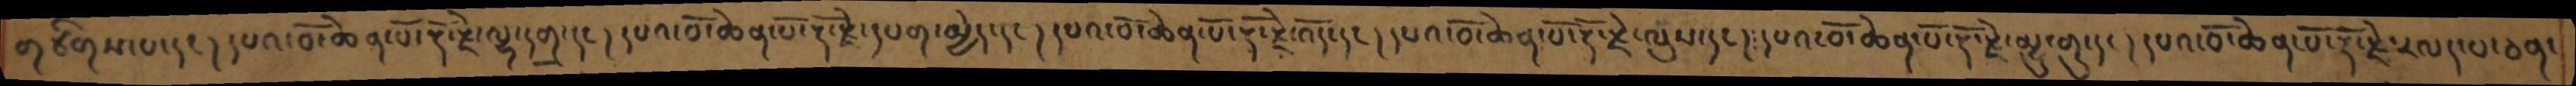གཅིགས་པ་དང །དཔའ་བོ་ཆེན་པོ་རྡོ་རྗེ་ལྷ་དག་དང ། དཔའ་བོ་ཆེན་པོ་རྡོ་རྗེ་དཔག་མྱེད་དང །དཔའ་བོ་ཆེན་པོ་ཆེན་པོ་རྡོ་རྗེ་འོད་དང ། དཔའ་བོ་ཆེན་པོ་རྡོ་རྗེ་ལུས་དང།༴དཔའ་བོ་ཆེན་པོ་རྡོ་རྗེ་མྱུ་གུ་དང །དཔའ་བོ་ཆེན་རྡོ་རྗེ་རལད་པ་ཅན་
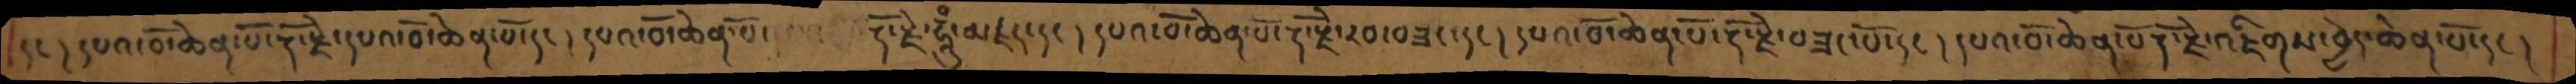དང །དཔའ་བོ་ཆེན་པོ་རྡོ་རྗེ་དཔའ་བོ་ཆེན་པོ་དང །དཔའ་བོ་ཆེན་པོ    རྡོ་རྗེ་ཧཱུྃ་མཛད་དང ། དཔའ་བོ་ཆེན་པོ་རྡོ་རྗེ་རབ་བཟང་དང །དཔའ་བོ་ཆེན་པོ་རྡོ་རྗེ་བཟང་པོ་དང །དཔའ་བོ་ཆེན་པོ་རྡོ་རྗེ་འཇིགས་བྱེད་ཆེན་པོ་དང །
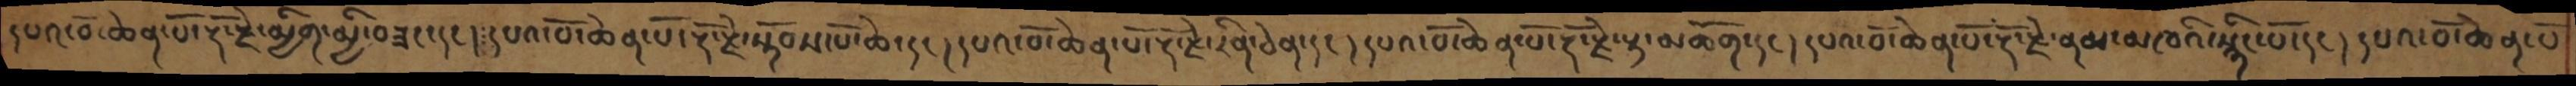དཔའ་བོ་ཆེན་པོ་རྡོ་རྗེ་མྱིག་མྱི་བཟང་དང།༴དཔའ་བོ་ཆེན་པོ་རྡོ་རྗེ་སྟོབས་པོ་ཆེ་དང །དཔའ་བོ་ཆེན་པོ་རྡོ་རྗེ་རིན་ཅེན་དང །དཔའ་བོ་ཆེན་པོ་རྡོ་རྗེ་རྟ་མཆོག་དང །དཔའ་བོ་ཆེན་པོ་རྡོ་རྗེ་ནམ་མཁའི་སྙིང་པོ་དང །དཔའ་བོ་ཆེན་པོ
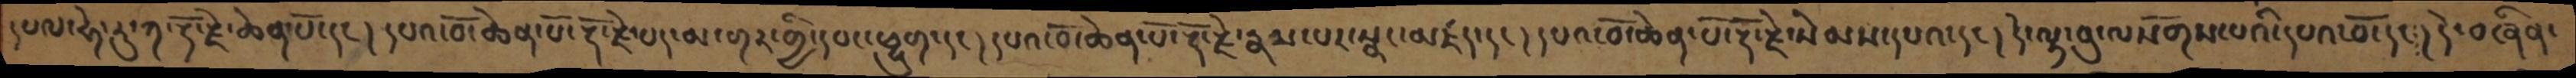དཔལ་ཧེ་རུ་ཀ་རྡོ་རྗེ་ཆེན་པོ་དང །དཔའ་བོ་ཆེན་པོ་རྡོ་རྗེ་པད་མ་གར་གྱི་དབང་ཕྱུག་དང །དཔའ་བོ་ཆེན་པོ་རྡོ་རྗེ་རྣམ་པར་སྣང་མཛད་དང །དཔའ་བོ་ཆེན་པོ་རྡོ་རྗེ་སེམས་དཔའ་དང །དེ་ལྟ་བུ་ལསོགས་པའི་དཔའ་བོ་དང ༴།དེ་བཞིན་
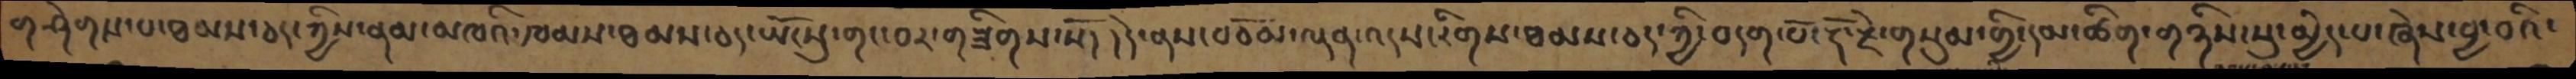གཤེགས་པ་ཐམས་ཅད་ཀྱིས་ནམ་མཁའི་ཁམས་ཐམས་ཅད་ཡོངསུ་གང་བར་གཟིགས་སོ་། །དེ་ནས་བཅོམ་ལྡན་འདས་རིགས་ཐམས་ཅད་ཀྱི་བདག་པོ་རྡོ་རྗེ་གསུམ་གྱི་དམ་ཚིག་གཉིས་སུ་མྱེད་པ་ཞེས་བྱ་བའི་
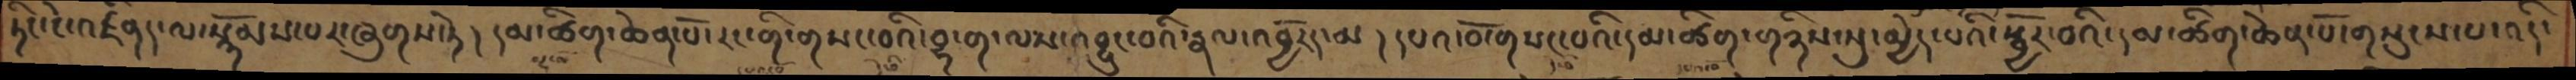ཏིང་ངེ་འཛིནད་ལ་སྙོམས་པར་ཞུགས་ཏེ།  དམ་ཚིག་ཆེན་པོ་རང་གི་གསང་བའི་བྷ་ག་ལས་འབྱུང་བའི་རྣལ་འབྱོརད་མ། དཔའ་བོ་གསང་བའི་དམ་ཚིག་གཉིས་སུ་མྱེད་པའི་སྦྱོར་བའི་དམ་ཚིག་ཆེན་པོ་གསུངས་པ་འདི་
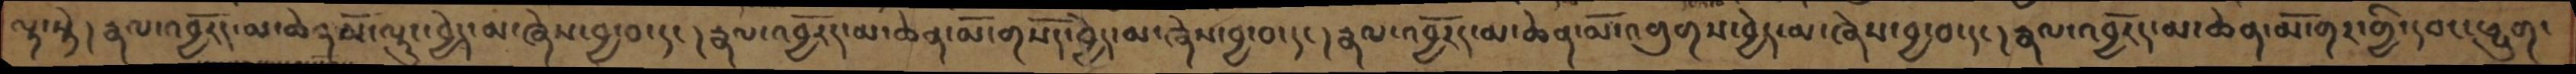ལྟ་སྟེ་།  རྣལ་འབྱོརད་མ་ཆེནམོ་ལྟུང་བྱེད་མ་ཞེས་བྱ་བ་དང །རྣལ་འབྱོར་མ་ཆེན་མོ་གསོད་བྱེད་མ་ཞེས་བྱ་བ་དང །རྣལ་འབྱོར་མ་ཆེན་མོ་འགུགས་བྱེད་མ་ཞེས་བྱ་བ་དང །རྣལ་འབྱོརད་མ་ཆེན་མོ་གར་གྱི་དབང་ཕྱུག་
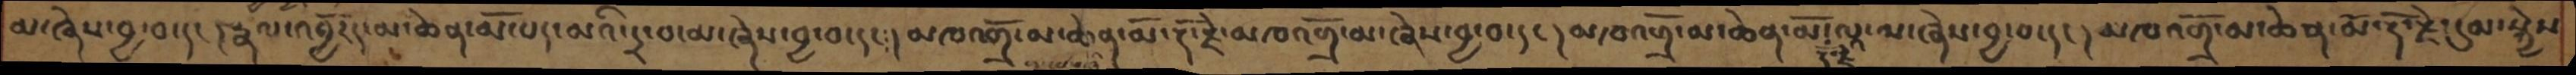མ་ཞེས་བྱ་བ་དང །རྣལ་འབྱོརད་མ་ཆེན་མོ་པད་མའི་དྲ་བ་མ་ཞེས་བྱ་བ་དང། མཁའགྲོ་མ་ཆེན་མོ་རྡོ་རྗེ་མཁའགྲོ་མ་ཞེས་བྱ་བ་དང།  མཁའགྲོ་མ་ཆེན་མོ་རྡོ་རྗེ་ལྟ་མ་ཞེས་བྱ་བ་དང། མཁའགྲོ་མ་ཆེན་མོ་རྡོ་རྗེ་དུམ་སྐྱེས
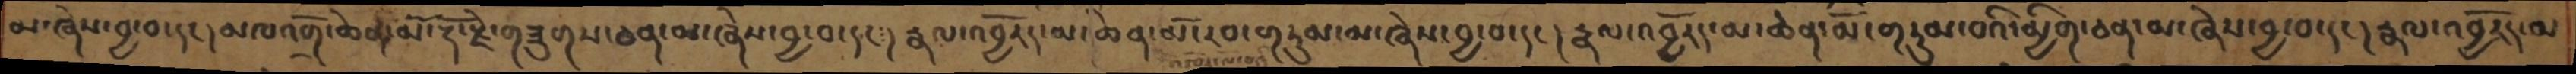མ་ཞེས་བྱ་བ་དང།  མཁའགྲོ་ཆེན་མོ་རྡོ་རྗེ་གཟུགས་ཅན་མ་ཞེས་བྱ་བ་དང། རྣལ་འབྱོརད་མ་ཆེན་མོ་རབ་གཏུམ་མ་ཞེས་བྱ་བ་དང། རྣལ་འབྱོརད་མ་ཆེན་མོ་གཏུམ་བའི་མྱིག་ཅན་མ་ཞེས་བྱ་བ་དང། རྣལ་འབྱོརད་མ
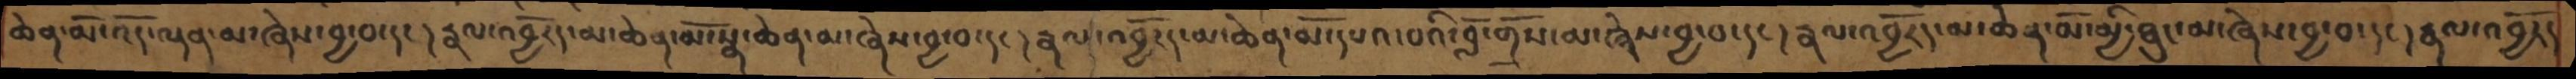ཆེན་མོ་འོད་ལྡན་མ་ཞེས་བྱ་བ་དང །རྣལ་འབྱོརད་མ་ཆེན་མོ་སྣ་ཆེན་མ་ཞེས་བྱ་བ་དང །རྣལ་འབྱོརད་མ་ཆེན་མོ་དཔའ་བའི་བློ་གྲོས་མ་ཞེས་བྱ་བ་དང །རྣལ་འབྱོརད་མ་ཆེན་མོ་མྱི་ཐུང་མ་ཞེས་བྱ་བ་དང །རྣལ་འབྱོརད་
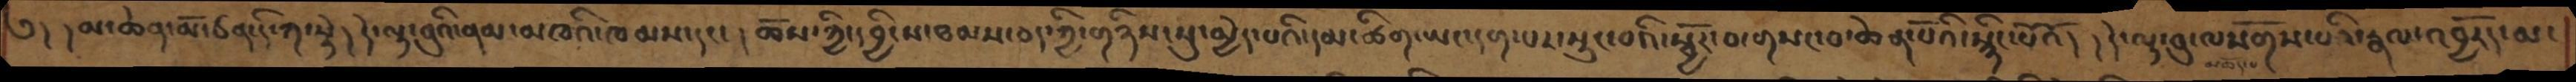༄། །མ་ཆེན་མོ་ཙན་དི་ཀ་སྟེ།  དེ་ལྟ་བུའི་ནམ་མཁའི་ཁམས་དང་ །ཆོས་ཀྱི་དབྱིངས་ཐམས་ཅད་ཀྱི་གཉིས་སུ་མྱེད་པའི་དམ་ཚིག་ཡང་དག་པར་སྲུང་བའི་སྦྱོར་བ་གསང་བ་ཆེན་པོའི་སྙིང་པོའོ། །དེ་ལྟ་བུ་ལསོགས་པའི་རྣལ་འབྱོརད་མ་
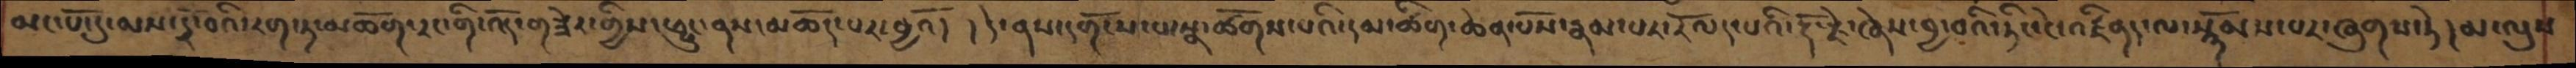མང་པོ་དུ་མས་དྲོ་བའི་རག་ཏ་མཆོག་རང་གི་ལྟོ་གཟེར་གྱིས་ཕྱུང་ནས་མཆོད་པར་བྱའོ། །དེ་ནས་དགོངས་པ་སྣ་ཚོགས་པའི་དམ་ཚིག་ཆེན་པོས་རྣམ་པར་རོལད་པའི་རྡོ་རྗེ་ཞེས་བྱ་བའི་ཏིང་ངེ་འཛིནད་ལ་སྙོམས་པར་ཞུགས་ཏེ།  མ་ལུས
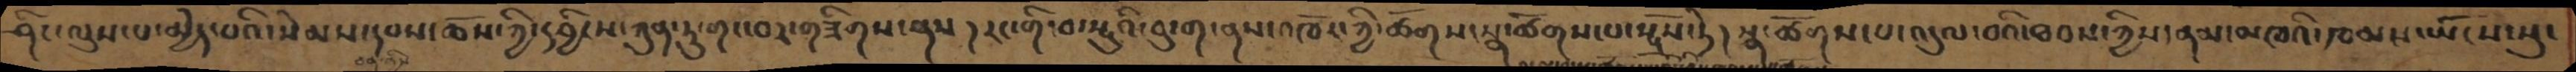ཤིང་ལུས་པ་མྱེད་པའི་སེམས་དཔས་ཆོས་ཀྱི་དབྱིངས་ཀུན་ཏུ་གང་བར་གཟིགས་ནས།  རང་གི་བ་སྤུའི་བུ་ག་ནས་འཁོར་ཀྱི་ཚོགས་སྣ་ཚོགས་པ་སྤྲོས་ཏེ། སྣ་ཚོགས་པ་འདུལ་བའི་ཐབས་ཀྱིས་ནམ་མཁའི་ཁམས་ཡོངས་སུ་
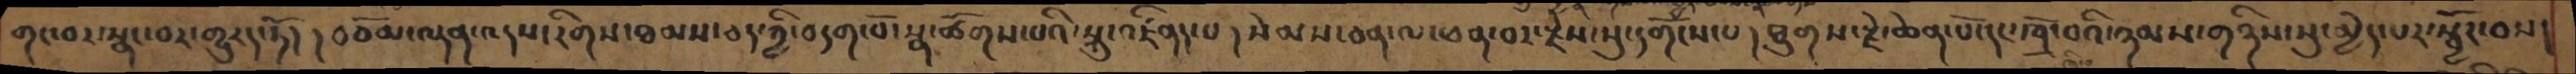གང་བར་སྣང་བར་གྱུརད་ཏོ། །བཅོམ་ལྡན་འདས་རིགས་ཐམས་ཅད་ཀྱི་བདག་པོ་སྣ་ཚོགས་པའི་སྐུ་འཛིནད་པ། སེམས་ཅན་ལ་ཕན་བར་རྗེས་སུ་དགོངས་པ། ཐུགས་རྗེ་ཆེན་པོ་དང་ཁྲོ་བའི་ཉམས་གཉིས་སུ་མྱེད་པར་སྦྱོར་བས།
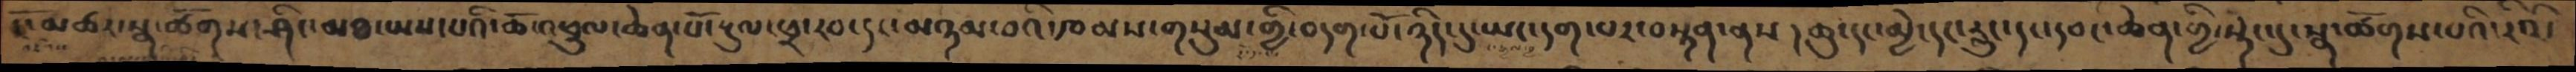ངོ་མཚར་སྣ་ཚོགས་ཤིང་མཐ་ཡས་པའི་ཆོ་འཕྲུལ་ཆེན་པོ་རྡུལ་ཕྲ་རབ་དང་མཉམ་པའི་ཁམས་གསུམ་གྱི་བདག་པོ་ཉིད་དུ་ཡང་དག་པར་བསྟན་ནས།  ཆུ་དང་མྱེ་དང་རླུང་དང་དབང་ཆེན་གྱི་སྟེང་དུ་སྣ་ཚོགས་པའི་རིའི་
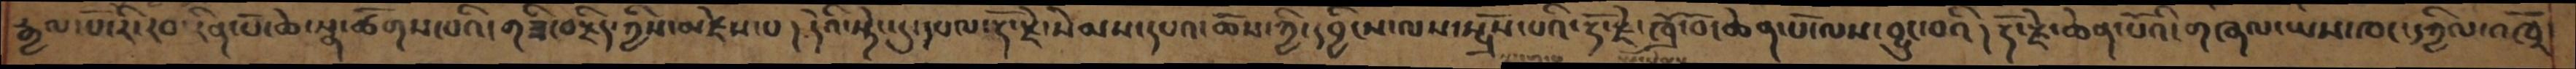རྒྱལ་པོ་རི་རབ་རིན་པོ་ཆེ་སྣ་ཚོགས་པའི་གཟི་བརྗིད་ཀྱིས་མཛེས་པ། དེའི་སྟེང་དུ་དཔལ་རྡོ་རྗེ་སེམས་དཔའ་ཆོས་ཀྱི་དབྱིངས་ལས་སྤྲོས་པའི་རྡོ་རྗེ་ཁྲོ་བོ་ཆེན་པོ་ལས་བྱུང་བའི། རྡོ་རྗེ་ཆེན་པོའི་གཞལ་ཡས་ཁང་དཀྱིལ་འཁོར་
